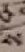ས
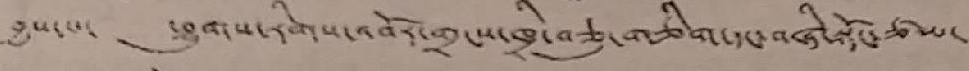བྱས་པ་ ཕྱུགས་རིགས་འབོར་གྲངས་ཁྲི་བཅུ་གཅིག་དང་བཞི་སྟོང་ཙམ་
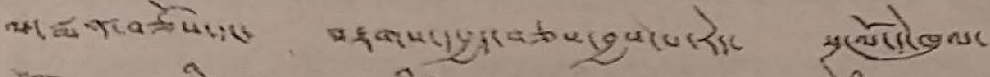ལ་སྨན་བཅོས་དང་ བརྟགས་དཔྱད་བཅས་བྱས་པ་རེད་ སྔ་ལོ་དེ་ཁུལ་
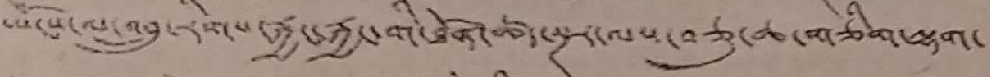ཡོངས་ལ་འབྲུ་རིགས་རྐྱང་རྐྱང་གི་ཐོན་ཚད་སྔར་ལས་བཅུ་ཆ་གཅིག་ལྷག་
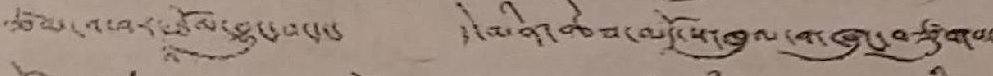ཙམ་འཕར་འཐོལ་བྱུང་བ་དང་ དེ་མིན་ཆབ་མདོ་ས་ཁུལ་གཞུང་བཙུགས་
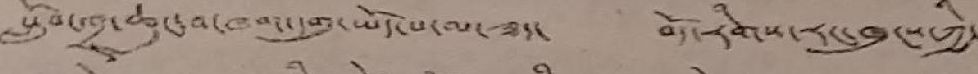སློབ་གྲྭ་ཆུང་བ་ཁག་དགུ་ཡོད་པ་མ་ཟད་ བོད་རིགས་རང་ཁུངས་ཀྱི་
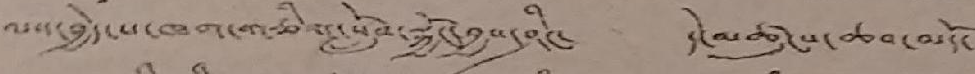ལས་བྱེད་པ་ཁག་གཅིག་སློབ་སྐྱོང་བྱས་ཤིང་ དེ་མཚུངས་ཆབ་མདོ་
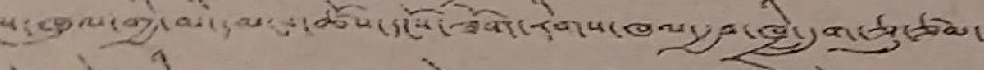ས་ཁུལ་གྱི་མི་དམངས་ཚོས་དངོས་ཟོག་རིགས་ཁལ་རྒྱབ་ཁྲི་དྲུག་ཅུ་ཙམ་
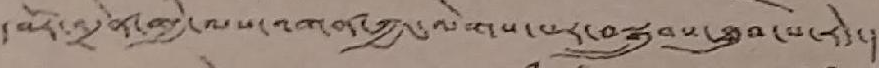དབོར་འདྲེན་གྱི་ལས་འགན་ཀྱང་ལེགས་པར་བསྒྲུབས་ཐུབ་པ་རེད།
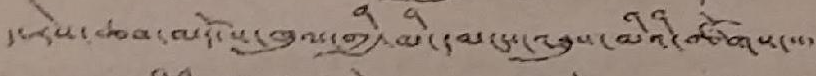ད་རེས་ཆབ་མདོ་ས་ཁུལ་གྱི་མི་དམངས་འཐུས་མིའི་ཚོགས་་་་
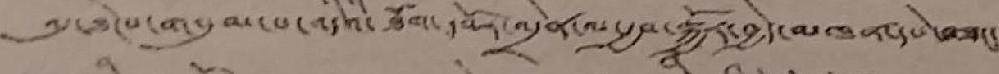འདུ་ཐེངས་གསུམ་པ་འདིའི་ཐོག་དབོར་འདྲེན་ལ་རྒྱབ་སྐྱོར་བྱེད་མཁན་དཔེ་བཟང་
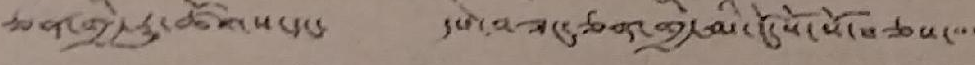ཅན་གྱི་རྒྱུ་ཚོགས་དང་ དཔེ་བཟང་ཅན་གྱི་མི་ངོ་སོ་སོ་བཅས་་་་
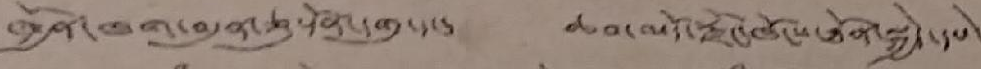ཁྱོན་ཁག་བདུན་ཅུ་དོན་དགུ་དང་ ཆབ་མདོ་རྫོང་ཁོངས་ཐོན་སྐྱེད་དཔེ་
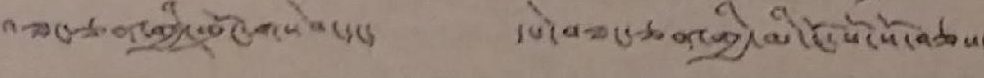བཟང་ཅན་གྱི་གྲོང་གསེབ་དང་ དཔེ་བཟང་ཅན་གྱི་མི་ངོ་སོ་སོ་བཅས་
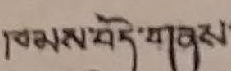ཁམས་བོད་གནས་
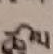ཚུལ་
